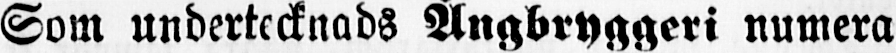Som undertecknads Ångbryggeri numera
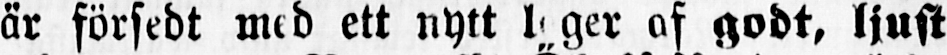är försedt med ett nytt lager af godt, ljust
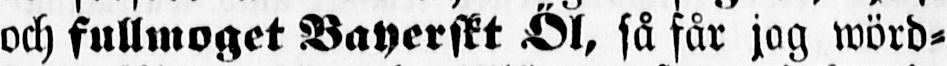och fullmoget Bayerskt Öl, så får jag wörd-
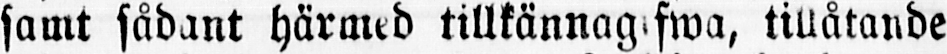samt sådant härmed tillkännagifwa, tillåtande
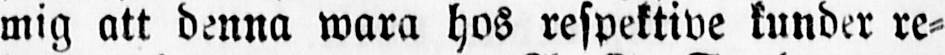mig att denna wara hos respektive kunder re-
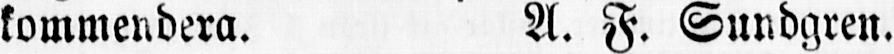kommendera. A. F. Sundgren.
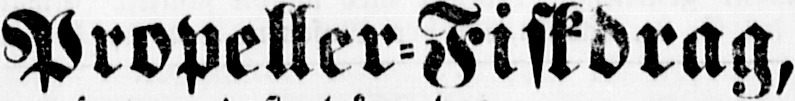Propeller-Fiskdrag,
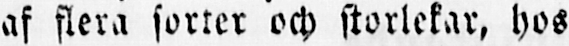af flera sorter och storlekar, hos
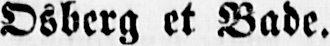Osberg et Bade.
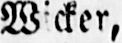Wicker,
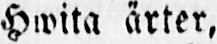Hwita ärter,
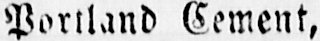Portland Cement,
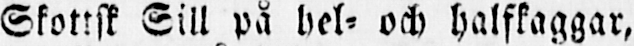Skottsk Sill på hel- och halfkaggar,
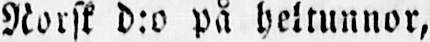Norsk d:o på heltunnor,
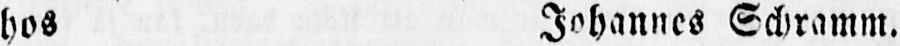hos Johannes Schramm.
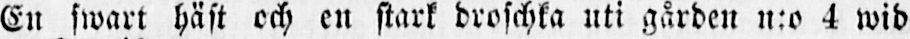En swart häst och en stark droschka uti gården n:o 4 wid
